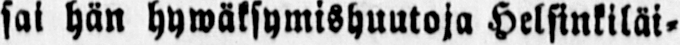sai hän hywäksymishuutoja Helsinkiläi-
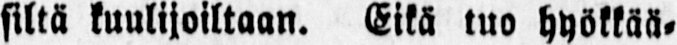siltä kuulijoiltaan. Eikä tuo hyökkää-
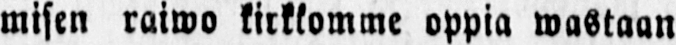misen raiwo kirkkomme oppia wastaan
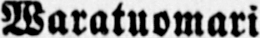Waratuomari
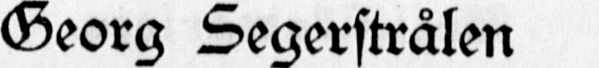Georg Segerstrålan
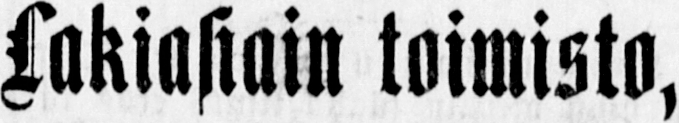Lakiasiain toimisto,
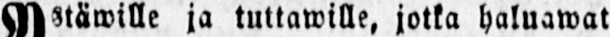Ystäwille ja tuttawille, jotka haluawat
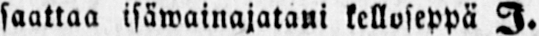saattaa isäwainajatani kelloseppä I.
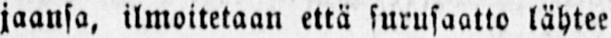jaansa, ilmoitetaan että surusaatto lähtee
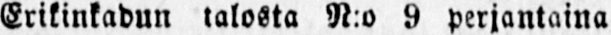Erikinkadun talosta N:o 9 perjantaina
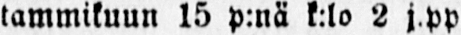tammikuun 15 p:nä kelo 2 j.pp
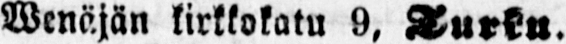Wenäjän kirkkokatu 9, Turku.
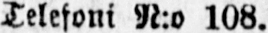Telefoni N:o 108.
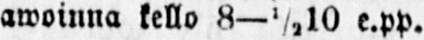awoinna kello 8—½10'e.pp.
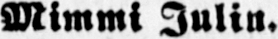Mimmi Julin.
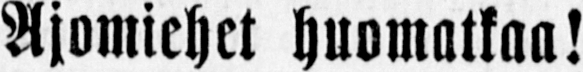Ajomiehet huomatkaa!
